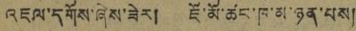འཇལ་དགོས་ཞེས་ཟེར། ཇོ་མོ་ཚང་ཁ་མ་ཉན་པས།
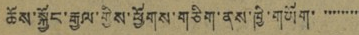ཆོས་སྐྱོང་རྒྱལ་གྱིས་ཕྱོགས་གཅིག་ནས་ཁྱི་གཡོག་་་་་་་་་་
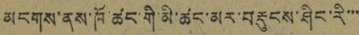མངགས་ནས་ཁོ་ཚང་གི་མི་ཚང་མར་བརྡུངས་ཤིང་རི་་་
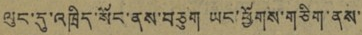ལུང་དུ་འཁྲིད་སོང་ནས་བཅུག ཡང་ཕྱོགས་གཅིག་ནས་
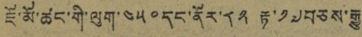ཇོ་མོ་ཚང་གི་ལུག་༤༥༠དང་ནོར་༨༢ རྟ་༡༧བཅས་རྒྱུ
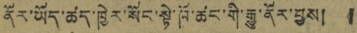ནོར་ཡོད་ཚད་ཁྱེར་སོང་སྟེ་ཁོ་ཚང་གི་རྒྱུ་ནོར་བྱས། །
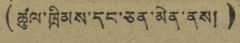(ཚུལ་ཁྲིམས་དང་ཅན་མེན་ནས།)
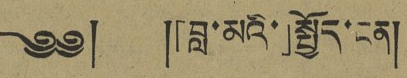༄༅། །「བླ་མའི་」སྤྱོད་ངན།
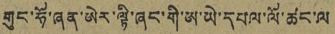གུང་ཧོ་ཞན་ཨེར་ལྟི་ཞང་གི་ཨ་ཡེ་དཔལ་ལོ་ཚང་ལ
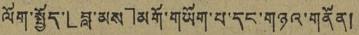ལོག་སྤྱོད་「བླ་མས་」མགོ་གཡོག་པ་དང་གཉའ་གནོན།
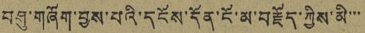བཤུ་གཞོག་བྱས་པའི་དངོས་དོན་ངོ་མ་བརྗོད་ཀྱིས་མི་་་
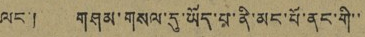ལང་། གཤམ་གསལ་དུ་ཡོད་པ་ནི་མང་པོ་ནང་གི་་
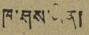ཁ་ཤས་ཡིན།
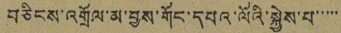བཅིངས་འགྲོལ་མ་བྱས་གོང་དཔའ་ལོའི་སྐྱེས་པ་་་་་
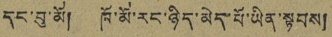དང་བུ་མོ། ཁོ་མོ་རང་ཉིད་མེད་པོ་ཡིན་སྟབས།
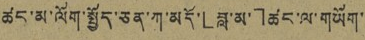ཚང་མ་ལོག་སྤྱོད་ཅན་ཀ་མདོ་「བླ་མ་」ཚང་ལ་གཡོག་
